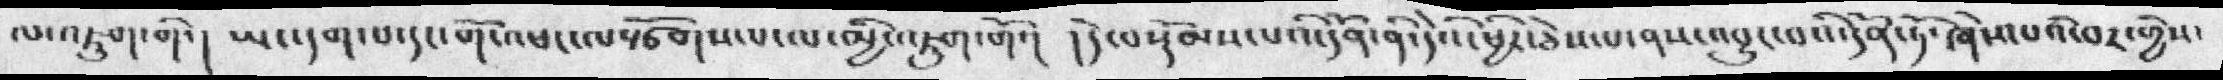ལ་འཇུག་གི་།  ཡང་དག་པ་དང་གོ་འཕང་ལསྩོགས་པ་ལ་མྱི་འཇུག་གོ་།  །དེ་བསྡོམས་པའི་དོན་ནི་དེའི་ཕྱིར་ཅེས་པ་ནས་འབྱུང་བའི་དོན་ཏོ་ཞེས་པའི་བར་ཕྱེས་
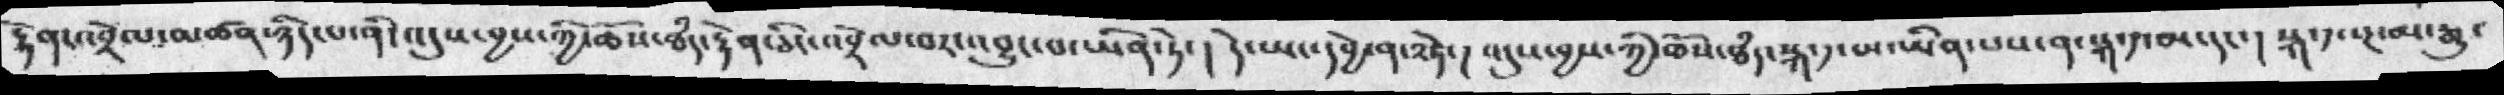རྟེན་འབྲེལ་མཚན་ཉིད་པ་ནི་འདུས་བྱས་ཀྱི་ཆོས་ཐཾད་རྟེན་ཅིང་འབྲེལ་བར་འབྱུང་པ་ཡིན་ཏེ་ ། དེ་ཡང་དབྱེ་ན་༢ཏེ་། འདུས་བྱས་ཀྱི་ཆོས་ཐདཾ་སྐ་༡་མ་ཡིན་པས་སྐ་༡་མ་དང་སྐ་༡་སྔ་མ་རྒྱུ་
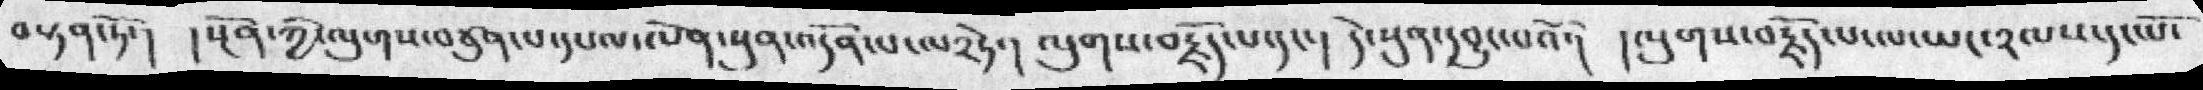བསྟན་ཏོ་།  །སྔོན་ཀྱི་ལུགས་བཙུན་པ་དཔལ་ལེན་སུན་འདོད་པ་ལ༢ཏེ་།  ལུགས་བརྗོད་པ་དང་།  དེ་སུན་དབྱུང་པའོ་།  །ལུགས་བརྗོད་པ་ལ་ཡང་༢ལས་དང་པོ་
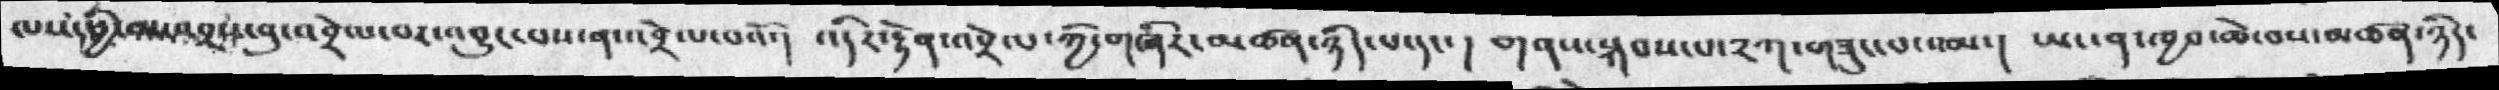ལས།ཕྱི་མར་འབྲས་བུ་འབྲེལ་བར་འབྱུང་པས་ན་འབྲེལ་པའོ་། འདིར་རྟེན་འབྲེལ་ཀྱི་གཞིར་མཚན་ཉིད་པ་དང་། གནས་སྐབས་པ་༢ཀ་གཟུང་པ་སམ་།  ཡང་ན་ཁྱབ་ཆེ་བས་མཚན་ཉིད་
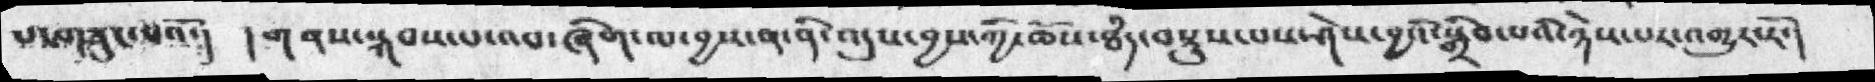པ་གཟུང་པའོ་།    །གནས་སྐབས་པ་འབ་ཞིག་ལ་བྱས་ན་ནི་འདུས་བྱས་ཀྱི་ཆོས་ཐདཾ་བསྡུས་པས་ཤེས་བྱའི་སྒྲིབ་པའི་ཉེས་པར་འགྱུར་རོ་།
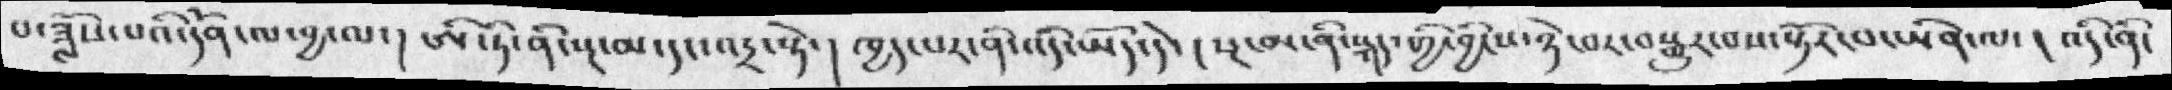པ་ཟློས་པའི་དོན་ལ་བྱ་ལ་།   ཨི་ཏི་ནི་སྔ་མ་དང་འདྲ་སྟེ་ ། ཁྱད་པར་ནི་འདི་ཡོད་དེ་ ། སྔ་མ་ནི་སྐད་གྱི་བྱིངས་ཉེ་བར་བསྒྱུར་བས་སྟེར་བ་ཡིན་ལ་  ། འདི་ནི་
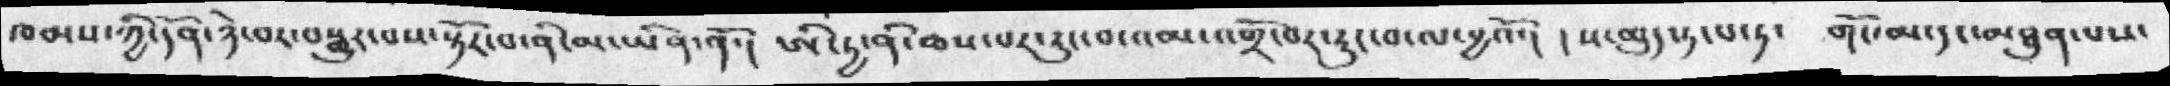ཁམས་ཀྱི་དོན་ཉེ་བར་བསྒྱུར་བས་སྟོར་བ་ནི་མ་ཡིན་ནོ་།  ཨི་ཏྱ་ནི་ཆས་པར་རུང་བ་འམ་འགྲོ་བར་རུང་བ་ལ་བྱའོ་།  ། ས་མུད་ཏ་པ་ཏ་   གོང་མ་དང་མཐུན་པས་
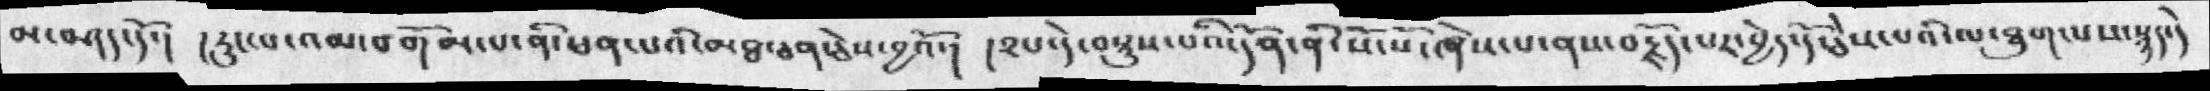མ་བཤད་དོ་། །རུང་པ་འམ་བགོམ་པ་ནི་ཕན་པའི་མཐ་ཅན་ཅེས་བྱའོ་།  །༢པ་དེ་བསྡུས་པའི་དོན་ནི་སོ་སོ་ཞེས་པ་ནས་བརྗོད་པར་བྱེད་དོ་ཅེས་པའི་ལ་ཐུག་པས་སྙད་དེ་
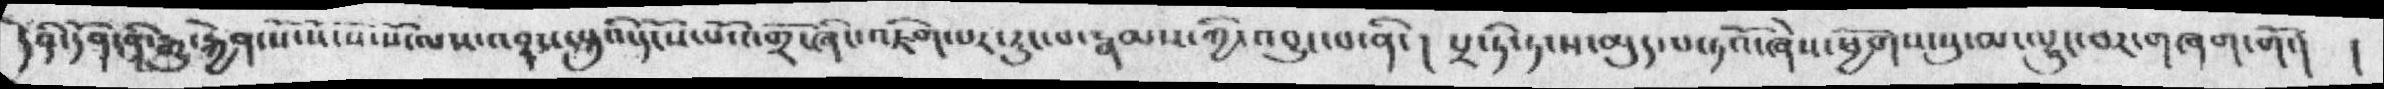དེའི་དོན་ནི་རྒྱུ་རྐྱེན་སོ་སོ་སོ་སོ་ལས་འབྲས་བུའི་དངོས་པོ་འགྲོང་ཞིང་འཇིག་པར་རུང་བ་རྣམས་ཀྱི་འབྱུང་པ་ནི་།  པྲ་ཏི་ཏ་ས་མུད་པ་ཏོའ་ཞེས་ཕྱོགས་སུ་མ་ལྷུང་བར་གཞག་གོ་།  །
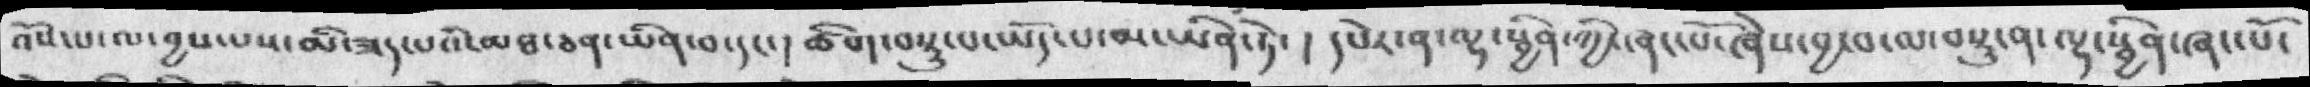འོས་པ་ལ་བྱས་པས་མི་ཟད་པའི་མཐ་ཅན་ཡིན་པ་དང་། ཚིག་བསྡུ་པ་ཡོད་པ་མ་ཡིན་ཏེ་ །  དཔེར་ན་ལྷ་སྦྱིན་ཀྱི་ཞང་པོ་ཞེས་བྱ་བ་མ་བསྡུ་ན་ལྷ་སྦྱིན་ཞང་པོ་
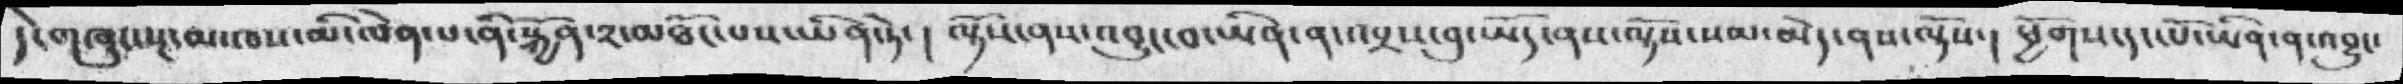དེ་གཞུང་སྔ་མ་ཁས་མི་ལེན་པ་ནི་སྐྱོན་༢་མཐོང་པས་ཡིན་ཏེ་ །  ལྟོས་ནས་འབྱུང་བ་ཡིན་ན་འབྲས་བུ་ཡོད་ནས་ལྟོས་སམ་མེད་ནས་ལྟོས་།   ཕྱོགས་དང་པོ་ཡིན་ན་འབྱུང་
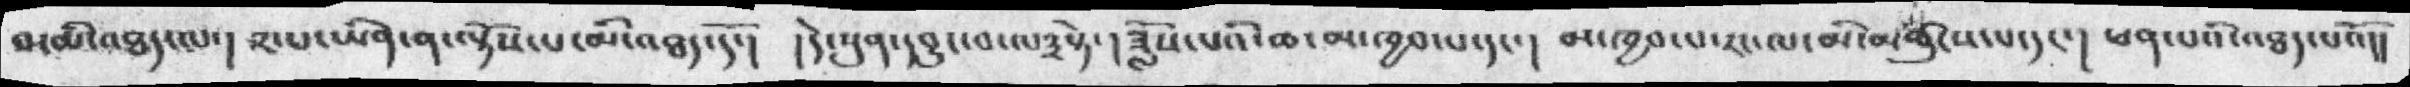བ་མི་འཐད་ལ་། ༢་པ་ཡིན་ན་ལྟོས་པ་མི་འཐད་དོ་།  །དེ་སུན་དབྱུང་བ་ལ༣སྟེ་ ། ཟློས་པའི་ཆ་མ་ཁྱབ་པ་ད་། མ་ཁྱབ་པ་རང་ལ་མི་མཚུངས་དང་།  ཕན་པའི་འཐད་པའོ།།
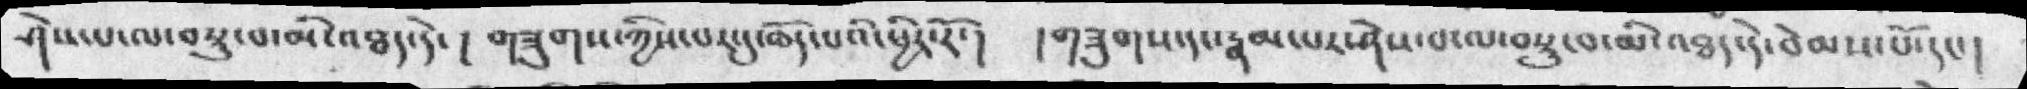ཤེས་པ་ལ་བསྟུ་པ་མི་འཐད་དེ་།   གཟུགས་ཀྱིས་པར་དུ་ཆོད་པའི་ཕྱིར་རོ་།  །གཟུགས་དང་རྣམ་པར་ཤེས་པ་ལ་བསྟུ་བ་མི་འཐད་དེ་བེམས་པོ་དང་།
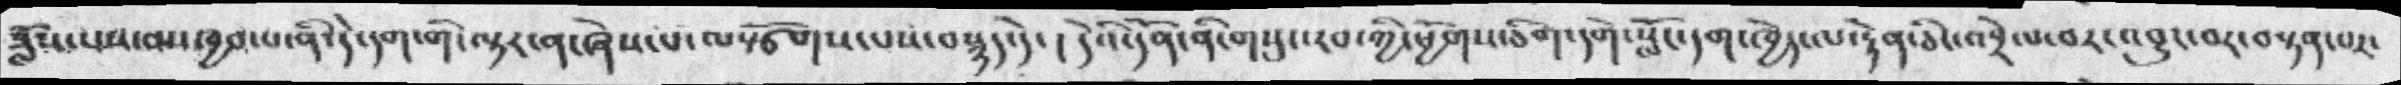ཟློས་པས་མ་ཁྱབ་པ་ནི་དེ་དག་གི་ལྟར་ན་ཞེས་པ་ལསྩོགས་པས་བསྙད་དེ་ ། དེའི་དོན་ནི་གསུང་རབ་ཀྱི་ཕྱོགས་ཅིག་དགེ་སློང་དག་ཁྱེད་ལ་རྟེན་ཅིང་འབྲེལ་བར་འབྱུང་བར་བསྟན་པར་
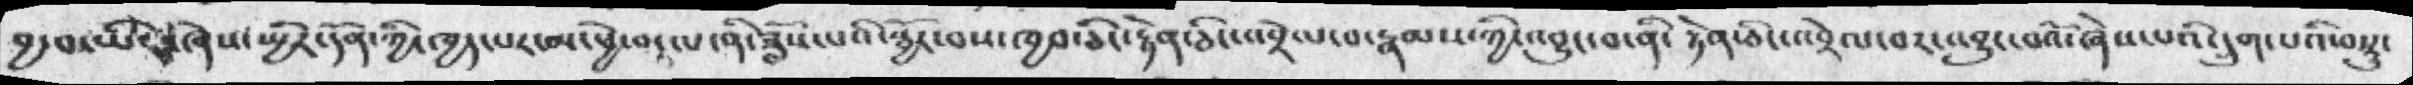བྱ་བ་ཡིན་ཞེས་ཡྱིར་དོན་ཀྱི་ཁྱད་པར་མ་ཕྱེ་བ་ལ་ནི་ཟློས་པའི་སྦྱོར་བས་ཁྱབ་ཅིང་རྟེན་ཅིང་འབྲེལ་བ་རྣམས་ཀྱི་འབྱུང་བ་ནི་རྟེན་ཅིང་འབྲེལ་བར་འབྱུང་བའོ་ཞེས་པའི་དྲུག་པའི་བསྟུ་
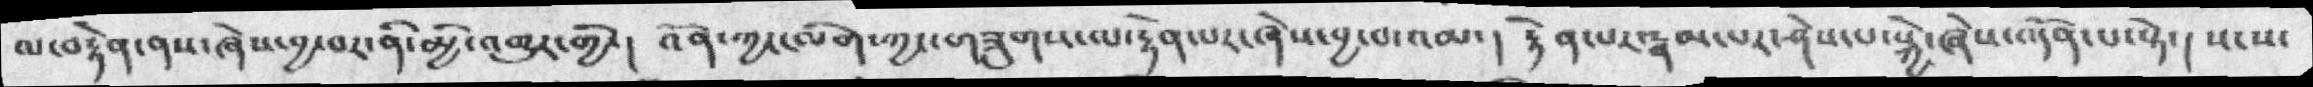ལ་བརྟེན་ནས་ཞེས་བྱ་བར་ནི་མྱི་འགྱུར་གྱི་།   འོན་ཀྱང་མིག་ཀྱང་གཟུགས་ལ་རྟེན་པར་ཞེས་བྱ་བ་འམ་།  རྟེན་པར་རྣམ་པར་ཤེས་པ་སྐྱེ་ཞེས་འདོན་པ་སྟེ་ ། སངས་
